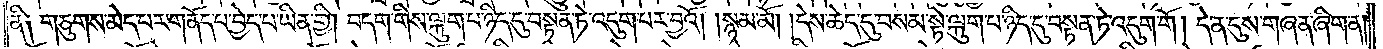ནི། གཅུགས་མེད་པར་གནོད་པ་བྱེད་པ་ཡིན་གྱི། བདག་གིས་ལྐུག་པ་ཉིད་དུ་བསྟན་ཏེ་འདུག་པར་བྱའོ། །སྙམ་མོ། །དེས་ཆེད་དུ་བསམ་སྟེ་ལྐུག་པ་ཉིད་དུ་བསྟན་ཏེ་འདུག་གོ། དེ་ན་དུས་གཞན་ཞིག་ན།
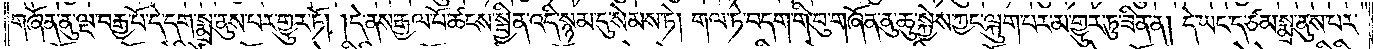གཞོན་ནུ་ལྔ་བརྒྱ་པོ་དེ་དག་སྨྲ་ནུས་པར་གྱུར་ཏོ། །དེ་ནས་རྒྱལ་པོ་ཚངས་སྦྱིན་འདི་སྙམ་དུ་སེམས་ཏེ། གལ་ཏེ་བདག་གི་བུ་གཞོན་ནུ་ཆུ་སྐྱེས་ཀྱང་ལྐུག་པར་མ་གྱུར་ཏུ་ཟིན་ན། དེ་ཡང་ད་ཙམ་སྨྲ་ནུས་པར་
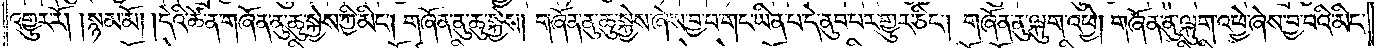འགྱུར་རོ། །སྙམ་མོ། །དེའི་ཚེ་ན་གཞོན་ནུ་ཆུ་སྐྱེས་ཀྱི་མིང༌། གཞོན་ནུ་ཆུ་སྐྱེས། གཞོན་ནུ་ཆུ་སྐྱེས་ཞེས་བྱ་བ་གང་ཡིན་པ་དེ་ནུབ་པར་གྱུར་ཅིང༌། གཞོན་ནུ་ལྐུག་འཕྱེ། གཞོན་ནུ་ལྐུག་འཕྱེ་ཞེས་བྱ་བའི་མིང་
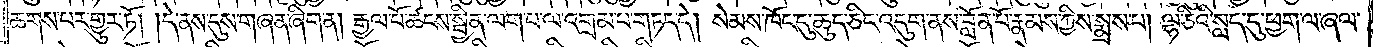ཆགས་པར་གྱུར་ཏོ། །དེ་ནས་དུས་གཞན་ཞིག་ན། རྒྱལ་པོ་ཚངས་སྦྱིན་ལག་པ་ལ་འགྲམ་པ་གཏད་དེ། སེམས་ཁོང་དུ་ཆུད་ཅིང་འདུག་ནས་བློན་པོ་རྣམས་ཀྱིས་སྨྲས་པ། ལྷ་ཅིའི་སླད་དུ་ཕྱག་ལ་ཞལ་
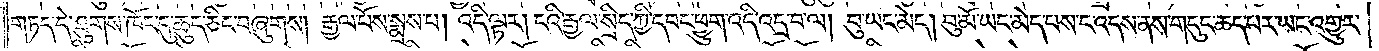གཏད་དེ་ཐུགས་ཁོང་དུ་ཆུད་ཅིང་བཞུགས། རྒྱལ་པོས་སྨྲས་པ། འདི་ལྟར། ངའི་རྒྱལ་སྲིད་ཀྱི་དབང་ཕྱུག་འདི་འདྲ་བ་ལ། བུ་ཡང་མེད། བུ་མོ་ཡང་མེད་པས་ང་འདས་ནས་གདུང་ཆད་པར་ཡང་འགྱུར་
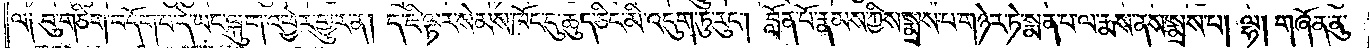ལ༑ བུ་གཅིག་བདོག་པ་དེ་ཡང་ལྐུག་འཕྱེར་གྱུར་ན། ད་ཇི་ལྟར་སེམས་ཁོང་དུ་ཆུད་ཅིང་མི་འདུག་ཏུ་རུང༌། བློན་པོ་རྣམས་ཀྱིས་སྨྲས་པ་གཉེར་ཏེ་སྨན་པ་ལ་རྨས་ནས་སྨྲས་པ། ལྷ། གཞོན་ནུ་
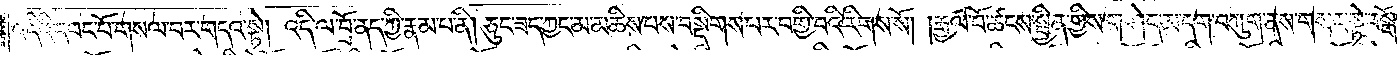འདིའི་དབང་པོ་གསལ་བར་གདའ་སྟེ། འདི་ལ་བྲོ་ནད་ཀྱི་རྣམ་པ་ནི། ཅུང་ཟད་ཀྱང་མ་མཆིས་པས་བསྡིགས་པར་བགྱི་བའི་རིགས་སོ། །རྒྱལ་པོ་ཚངས་སྦྱིན་གྱིས་གཤེད་མ་དག་བཀུག་ནས་གསང་སྟེ་བསྒོ་
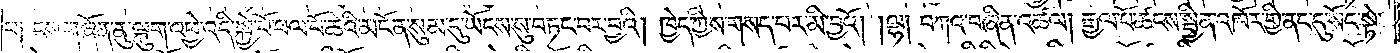པ༑ ངས་གཞོན་ནུ་ལྐུག་འཕྱེ་འདི་སྐྱེ་བོ་ཕལ་པོ་ཆེའི་མངོན་སུམ་དུ་ཡོངས་སུ་བཏང་བར་བྱའི། ཁྱེད་ཀྱིས་གསད་པར་མི་བྱའོ། །ལྷ། བཀའ་བཞིན་འཚལ། རྒྱལ་པོ་ཚངས་སྦྱིན་འཁོར་གྱི་ནང་དུ་སོང་སྟེ་
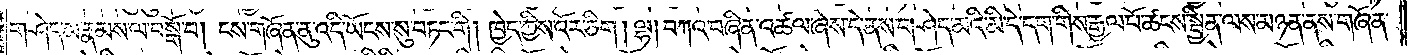གཤེད་མ་རྣམས་ལ་བསྒོ་བ། ངས་གཞོན་ནུ་འདི་ཡོངས་སུ་བཏང་གི། ཁྱེད་ཀྱིས་འོར་ཅིག། ལྷ། བཀའ་བཞིན་འཚལ་ཞེས་དེ་ནས་གཤེད་མའི་མི་དེ་དག་གིས་རྒྱལ་པོ་ཚངས་སྦྱིན་ལས་མཉན་ནས་གཞོན་
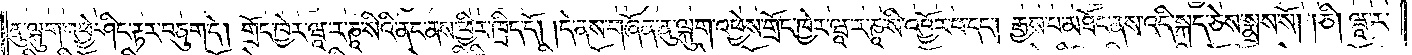ནུ་ལྐུག་འཕྱེ་ཤིང་རྟར་བཅུག་དེ། གྲོང་ཁྱེར་ཝཱ་ར་ཎཱ་སིའི་ནང་ནས་ཕྱིར་ཁྲིད་དོ། །དེ་ནས་གཞོན་ནུ་ལྐུག་འཕྱེས་གྲོང་ཁྱེར་ཝཱ་ར་ཎཱ་སི་འབྱོར་པ་དང༌། རྒྱས་པ་མཐོང་ནས་འདི་སྐད་ཅེས་སྨྲས་སོ། །ཅི། ཝཱ་ར་
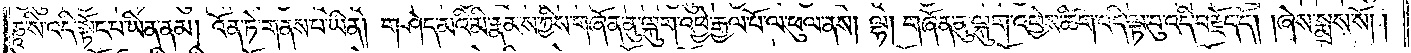ཎཱ་སི་འདི་སྟོང་པ་ཡིན་ནམ། འོན་ཏེ་གནས་པ་ཡིན། གཤེད་མའི་མི་རྣམས་ཀྱིས་གཞོན་ནུ་ལྐུག་འཕྱེ་རྒྱལ་པོ་ལ་ཕུལ་ནས། ལྷ། གཞོན་ནུ་ལྐུག་འཕྱེས་ཚིག་འདི་ལྟ་བུ་འདི་བརྗོད་དོ། །ཞེས་སྨྲས་སོ། །
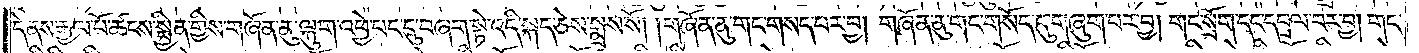དེ་ནས་རྒྱལ་པོ་ཚངས་སྦྱིན་གྱིས་གཞོན་ནུ་ལྐུག་འཕྱེ་པང་དུ་བཞག་སྟེ་འདི་སྐད་ཅེས་སྨྲས་སོ། །གཞོན་ནུ་གང་གསད་པར་བྱ། གཞོན་ནུ་གང་གསོད་དུ་གཞུག་པར་བྱ། གང་སྲོག་དང་དབྲལ་བར་བྱ། གང་
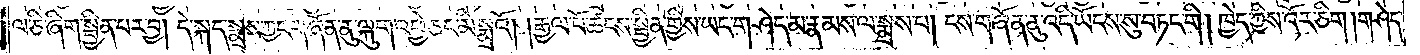ལ་ཅི་ཞིག་སྦྱིན་པར་བྱ། དེ་སྐད་སྨྲས་ཀྱང་གཞོན་ནུ་ལྐུག་འཕྱེ་ཅང་མི་སྨྲའོ། །རྒྱལ་པོ་ཚངས་སྦྱིན་གྱིས་ཡང་གཤེད་མ་རྣམས་ལ་སྨྲས་པ། ངས་གཞོན་ནུ་འདི་ཡོངས་སུ་བཏང་གི། ཁྱེད་ཀྱིས་འོར་ཅིག །གཤེད་
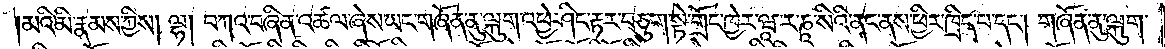མའི་མི་རྣམས་ཀྱིས། ལྷ། བཀའ་བཞིན་འཚལ་ཞེས་ཡང་གཞོན་ནུ་ལྐུག་འཕྱེ་ཤིང་རྟར་བཅུག་སྟེ་གྲོང་ཁྱེར་ཝཱ་ར་ཎཱ་སིའི་ནང་ནས་ཕྱིར་ཁྲིད་པ་དང༌། གཞོན་ནུ་ལྐུག་
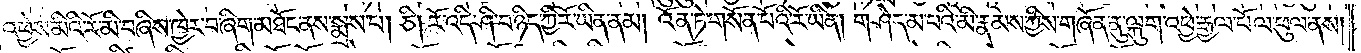འཕྱེས་མིའི་རོ་མི་བཞིས་ཁྱེར་བ་ཞིག་མཐོང་ནས་སྨྲས་པ། ཅི། རོ་འདི་ཤི་བ་ཉིད་ཀྱི་རོ་ཡིན་ནམ། འོན་ཏེ་གསོན་པོའི་རོ་ཡིན། གཤེད་མ་པའི་མི་རྣམས་ཀྱིས་གཞོན་ནུ་ལྐུག་འཕྱེ་རྒྱལ་པོ་ལ་ཕུལ་ནས།
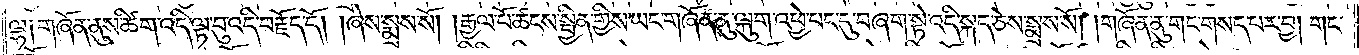ལྷ༑ གཞོན་ནུས་ཚིག་འདི་ལྟ་བུ་འདི་བརྗོད་དོ། །ཞེས་སྨྲས་སོ། །རྒྱལ་པོ་ཚངས་སྦྱིན་གྱིས་ཡང་གཞོན་ནུ་ལྐུག་འཕྱེ་པང་དུ་བཞག་སྟེ་འདི་སྐད་ཅེས་སྨྲས་སོ། །གཞོན་ནུ་གང་གསད་པར་བྱ། གང་
